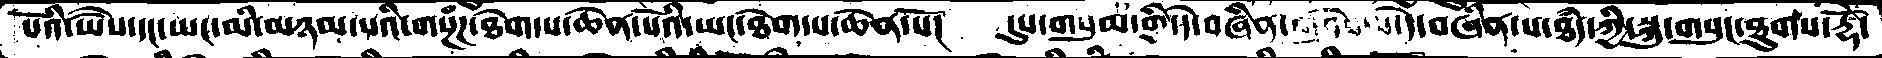པོའི་ཡཻས་དང་ཡང་མི་མཉམ་པའི་གསྔཾཌ་ཐེག་པ་ཆེན་པོའི་ཡང་ཐེག་པ་ཆེན་པོ།    དུས་གསུམ་གྱི་དེ་བཞིན་གཤེཌ་པ་དེ་བཞིན་པ་ཐཾད་ཀྱི་སྐུ་གསུང་ཐུགས་རྡོེ་
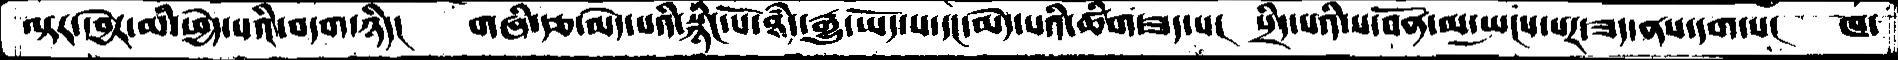ལྟར་དབྱེར་མི་ཕྱེད་པའི་བདག་ཉིད་།    གཞི་རྩ་མེད་པའི་སྙིང་པོ་ཐཾད་རྒྱུད་ཡོད་པ་དང་མེད་པའི་ཚིག་ཟད་པ།  སྲིད་པའི་ས་བོན་མ་སྤངས་པར་ཟད་ནས་དག་པ།   ཁ་
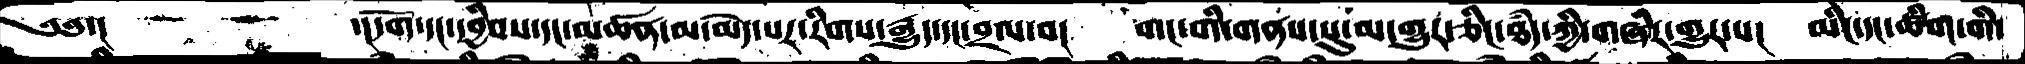༄༅་།          ་།དོག་དང་དབྱིབས་དང་མཚན་མ་མེད་པར་རིགས་རྒྱུད་དང་བྲལ་བ།    གང་གི་གནས་སུ་མ་གྱུར་ཅིང་ཐཾད་ཀྱི་གཞིར་གྱུར་པ།    མིང་དང་ཚིག་གི་
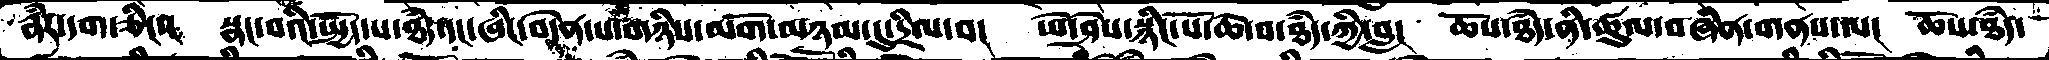རྣཾར་དག་ཅིང་།   སྣང་བའི་སྤྱོད་པ་ཐཾད་དང་ཞིང་བདེན་པ་གཉིས་མགོ་མཉམ་དུ་དྲིལ་བ།   ཡེ་ཤེས་སྙིང་པོ་ཆེ་བ་ཐཾད་ཀྱི་བླ།  ཆོས་ཐཾད་ནི་ཚུལ་བཞིན་གནས་ལ།  ཆོས་ཐཾད་
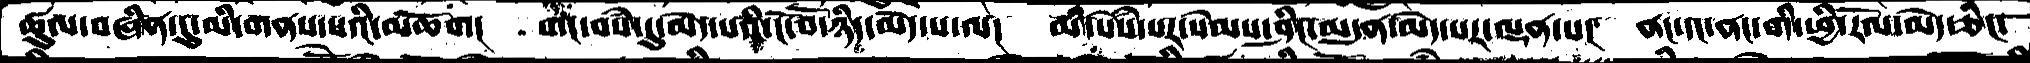ཚུལ་བཞིན་དུ་མི་གནས་པའི་མཆོག།  གང་བསཾ་དུ་མེད་པའི་ངོ་བོ་ཉིད་མེད་པ་ལ།  མི་སེསཾ་པར་སེམས་ཤིང་མདུན་མེད་པར་ལྡན་པ་།  ནང་དང་ནང་གི་ཕྱི་རོལ་མེད་ཅིང་
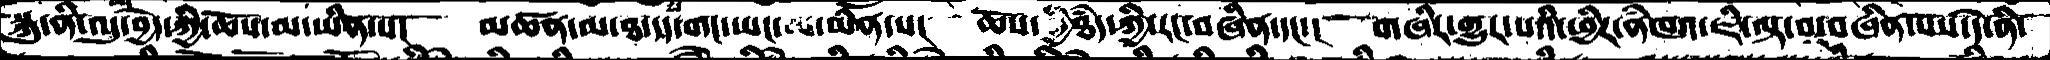སྐུ་ནི་འདུ་བྱེད་ཀྱི་ཆོས་མ་ཡིན་པ།  མཚན་མ་ཐ་དད་གང་ཡང་མ་ཡིན་པ།  ཆོསཀྱི་ཐཾད་རང་བཞིན་དང་།  གཞིར་གྱུར་པའི་ཕྱིར་ནཾཁའ་ཇི་ལྟ་བ་བཞིན་སོས་དེ་ནི་
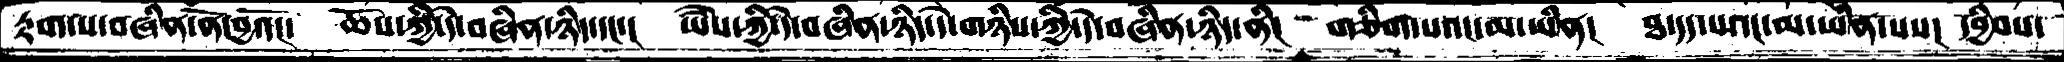རྟག་པ་བཞིན་ནོ་བྱའོ།་  ཆོས་ཀྱི་དེ་བཞིན་ཉིད་དང་།  ཡཻས་ཀྱི་དེ་བཞིན་ཉིད་དེ་གཉིས་ཀྱི་དེ་བཞིན་ཉིད་ནི།  གཅིག་པའང་མ་་ཡིན།  ཐ་དད་པའང་མ་ཡིན་པས།  དབྱིབས་
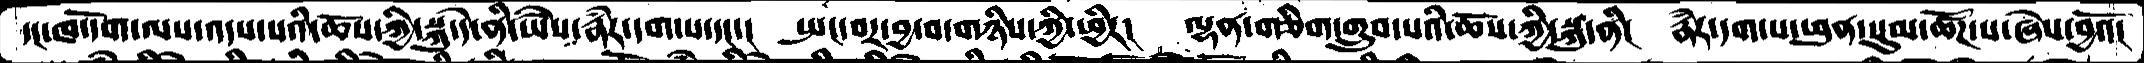དང་ཁ་དོག་ལས་འདས་པའི་ཆོས་ཀྱི་སྐུ་དེ་ནི་ཡཻས་རྣཾར་དག་པ་དང་།  སྤང་བར་བྱ་བ་གཉིས་ཀྱིཕྱིར།  ལྷན་གཅིག་གྲུབ་པའི་ཆོས་ཀྱི་སྐུ་ནི།  རྣཾར་དག་པ་ཕུན་སུམ་ཚོཌ་པ་ཞེས་བྱའོ།
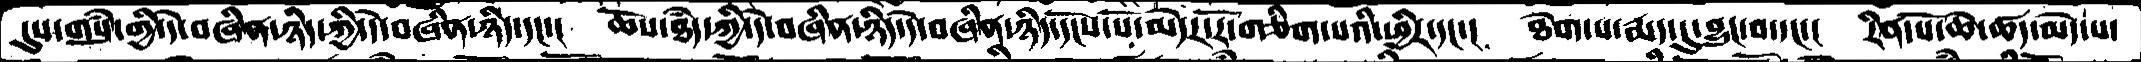དུས་གསུཾ་གྱི་དེ་བཞིན་ཉིད་ཀྱི་དེ་བཞིན་ཉིད་དང་།  ཆོས་ཐདཾ་ཀྱི་དེ་བཞིན་ཉིད་དེ་བཞིན་ཉིད་དངོས་པོ་མེདར་རོ་གཅོག་པའི་ཕྱིར་དང་།  ཐེག་པ་རྨད་དུ་བྱུང་བ་དང་།  རིན་པོ་ཆེ་ཚད་མེད་པ་
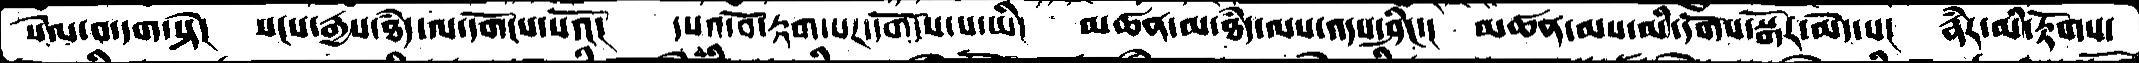སེལ་བ་དག་སྟེ།  སངས་རྒྱས་ཐཾད་ལ་དགོངས་པའོ།  དཔའ་བོ་རྟག་པར་དགོངས་པ་ཡི།  མཚན་མ་ཐྃད་ལས་འདས་ཤིང་།  མཚན་ལས་མི་དགོས་སྒོར་མེད་པ། རྣཾར་མི་རྟོགས་
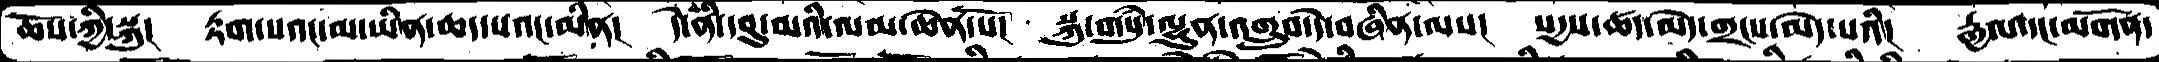ཆོས་ཀྱི་སྐུ།  རྟག་པའང་མ་ཡིན་ཆད་པའང་མིན།  དེ་ནི་དབུ་མའི་ལམ་ཆེན་པོ།  སྐུ་གསུཾ་ལྷུན་འགྲུབ་དེ་བཞིན་ལས།  སདྱས་ཚད་མེད་གྲངས་མེད་པའི། རྒྱལ་དང་མགོན་
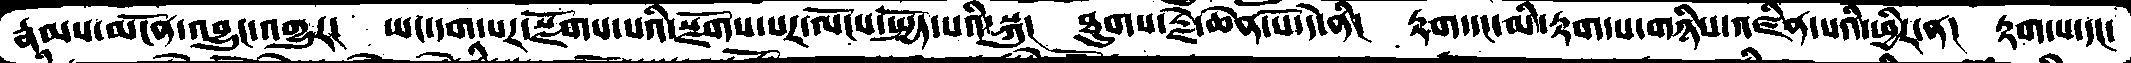རྣམས་མངོན་འབྱུང་འགྱུར།  ཡང་དག་པར་སྫོགས་པའི་སྫོགས་པར་ལོངས་སྤྱོད་པའི་སྐུ།  ཐུགས་རྗེ་ཆེན་པོ་དེ་ནི།  རྟག་དང་མི་རྟག་པ་གཉིས་འཛིན་པའི་ཕྱིར་ན་།  རྟག་པ་དང་
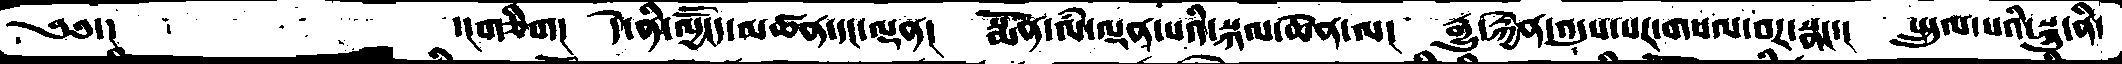༄༅་།      ད།གཅིག།  དེ་ནི་ལྱོོངད་མཚན་དང་ལྡན།  སྨོན་ལཾ་ལྡན་པའི་སྐལ་ཆེན་ལ།  རྒྱུ་རྐྱེན་འདུས་པར་གསལ་བར་སྣང་།  སྤྲུལ་པའི་སྐུ་ནི་
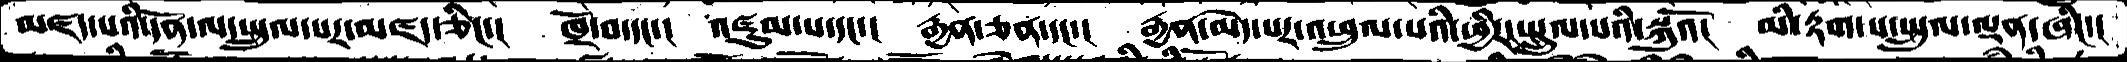མཛད་པའི་དོན་ལ་སྤྲུལ་པར་མཛད་ཅིང་།  ཁྲོ་བ་དང་།  འཛུམ་པ་དང་། རྒྱན་ཅན་དང་།  རྒྱན་མེད་པར་འཕྲུལ་པའི་ཕྱིར་སྤྲུལ་པའི་སྐུའོ།  མི་རྟག་པ་སྤྲུལ་ལྡན་ཞིང་།
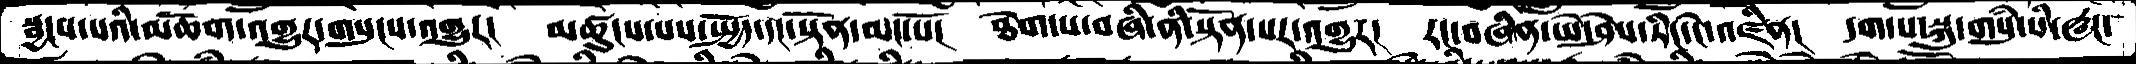སྦྱངས་པའི་མཆོག་འགྱུར་གསུངས་འགྱུར།  མཚུངས་པས་སྤྱོད་དང་སྟོན་མང་པོ།  ཐེག་པ་བཞི་ནི་སྟོན་པར་འགྱུར།  རང་བཞིན་ཡེ་ཤེས་ཏིང་ངེ་འཛིན།  དག་པ་སྐུ་གསུཾ་པི་ཝང་
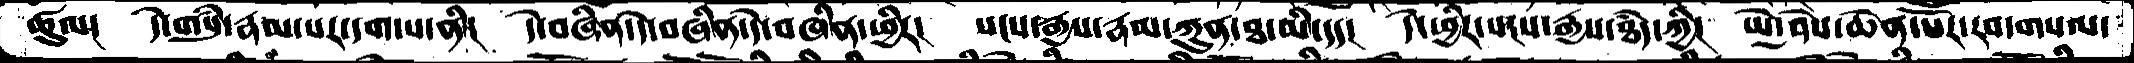ཚུལ།  དེ་གསུཾ་རྣམ་པར་དག་པ་ནི།  དེ་བཞིན་དེ་བཞིན་དེ་བཞིན་ཕྱིར།  སངས་རྒྱས་རྣམ་ཀུན་ཐ་མི་དད།  དེ་ཕྱིར་སངས་རྒྱས་ཐཾད་ཀྱི།  ཡེ་ཤེས་ཆེན་པར་རབ་གསལ་
